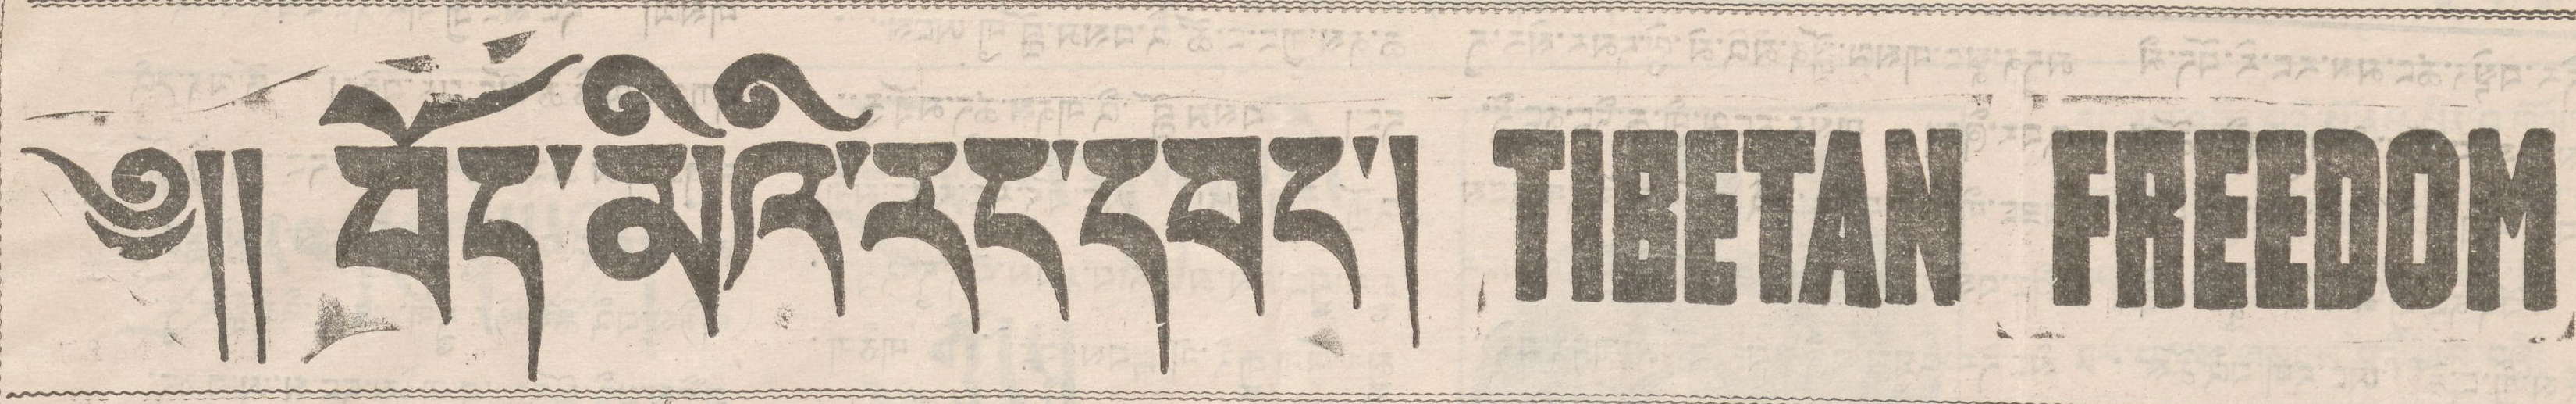༄།། བོད་མིའི་རང་དབང་། TIBETAN FREEDOM
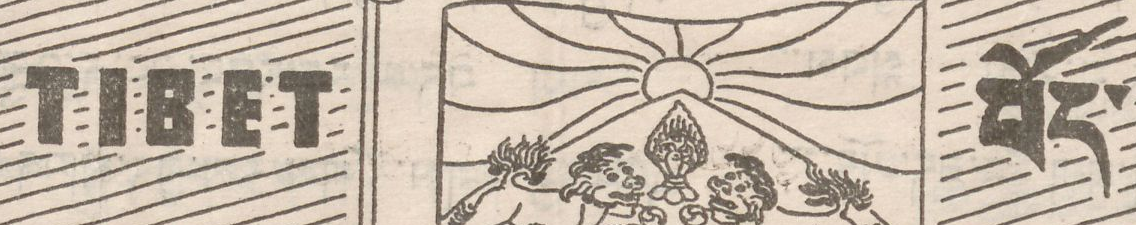TIBET བོད་
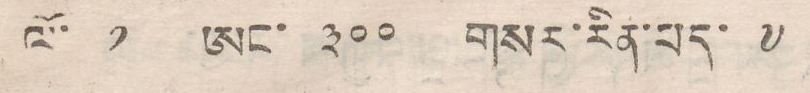ལོ་ ༡ ཨང་ ༣༠༠ གསར་རིན་པད་ ༧
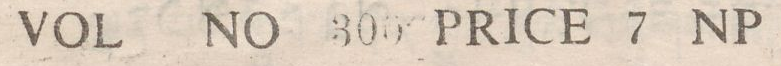VOL NO 300 PRICE / NP
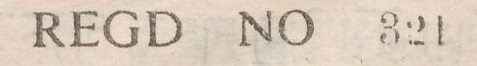REGD NO 321
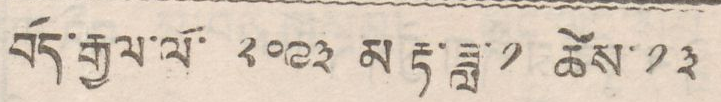བོད་རྒྱལ་ལོ་ ༢༠༩༣ མ་རྟ་ཟླ་ ༡ ཚེས་ ༡༣
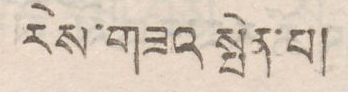རེས་གཟའ སྤེན་པ།
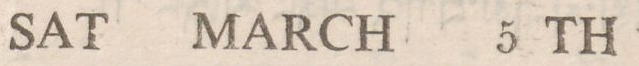SAT MARCH 5 TH
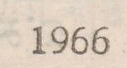1966
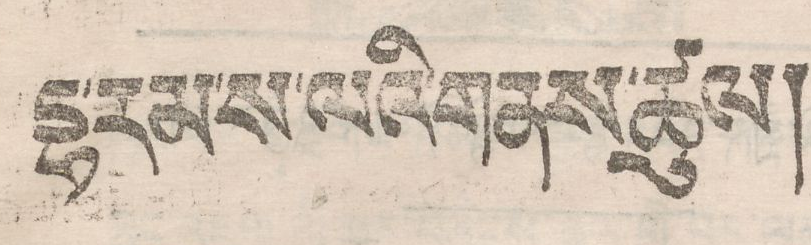དྷ་རམ་ས་ལའི་གནས་ཚུལ།
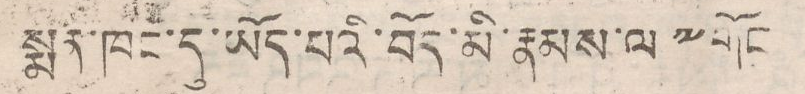སྨན་ཁང་དུ་ཡོད་པའི་བོད་མི་རྣམས་ལ་༸གོང
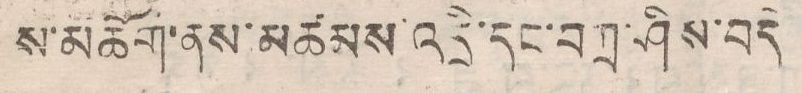ས་མཆོག་ནས་མཚམས འདྲི་དང་བཀྲ་ཤིས་བདེ
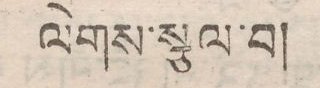ལེགས་སྩལ་བ།
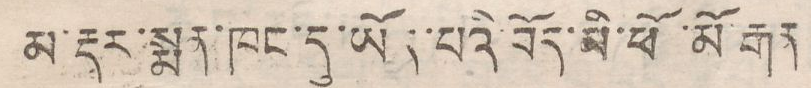མ་རྡར་སྨན་ཁང་དུ་ཡོད་པའི་བོད་མི་ཕོ་མོ་རྒན
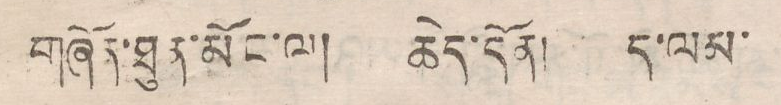གཞོན་ཐུན་མོང་ལ། ཆེད་དོན། ད་ལམ་
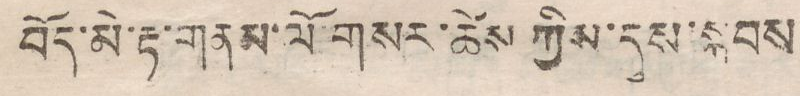བོད་མེ་རྟ་གནམ་ལོ་གསར་ཚེས ཀྱིས་དུས་སྐབས
